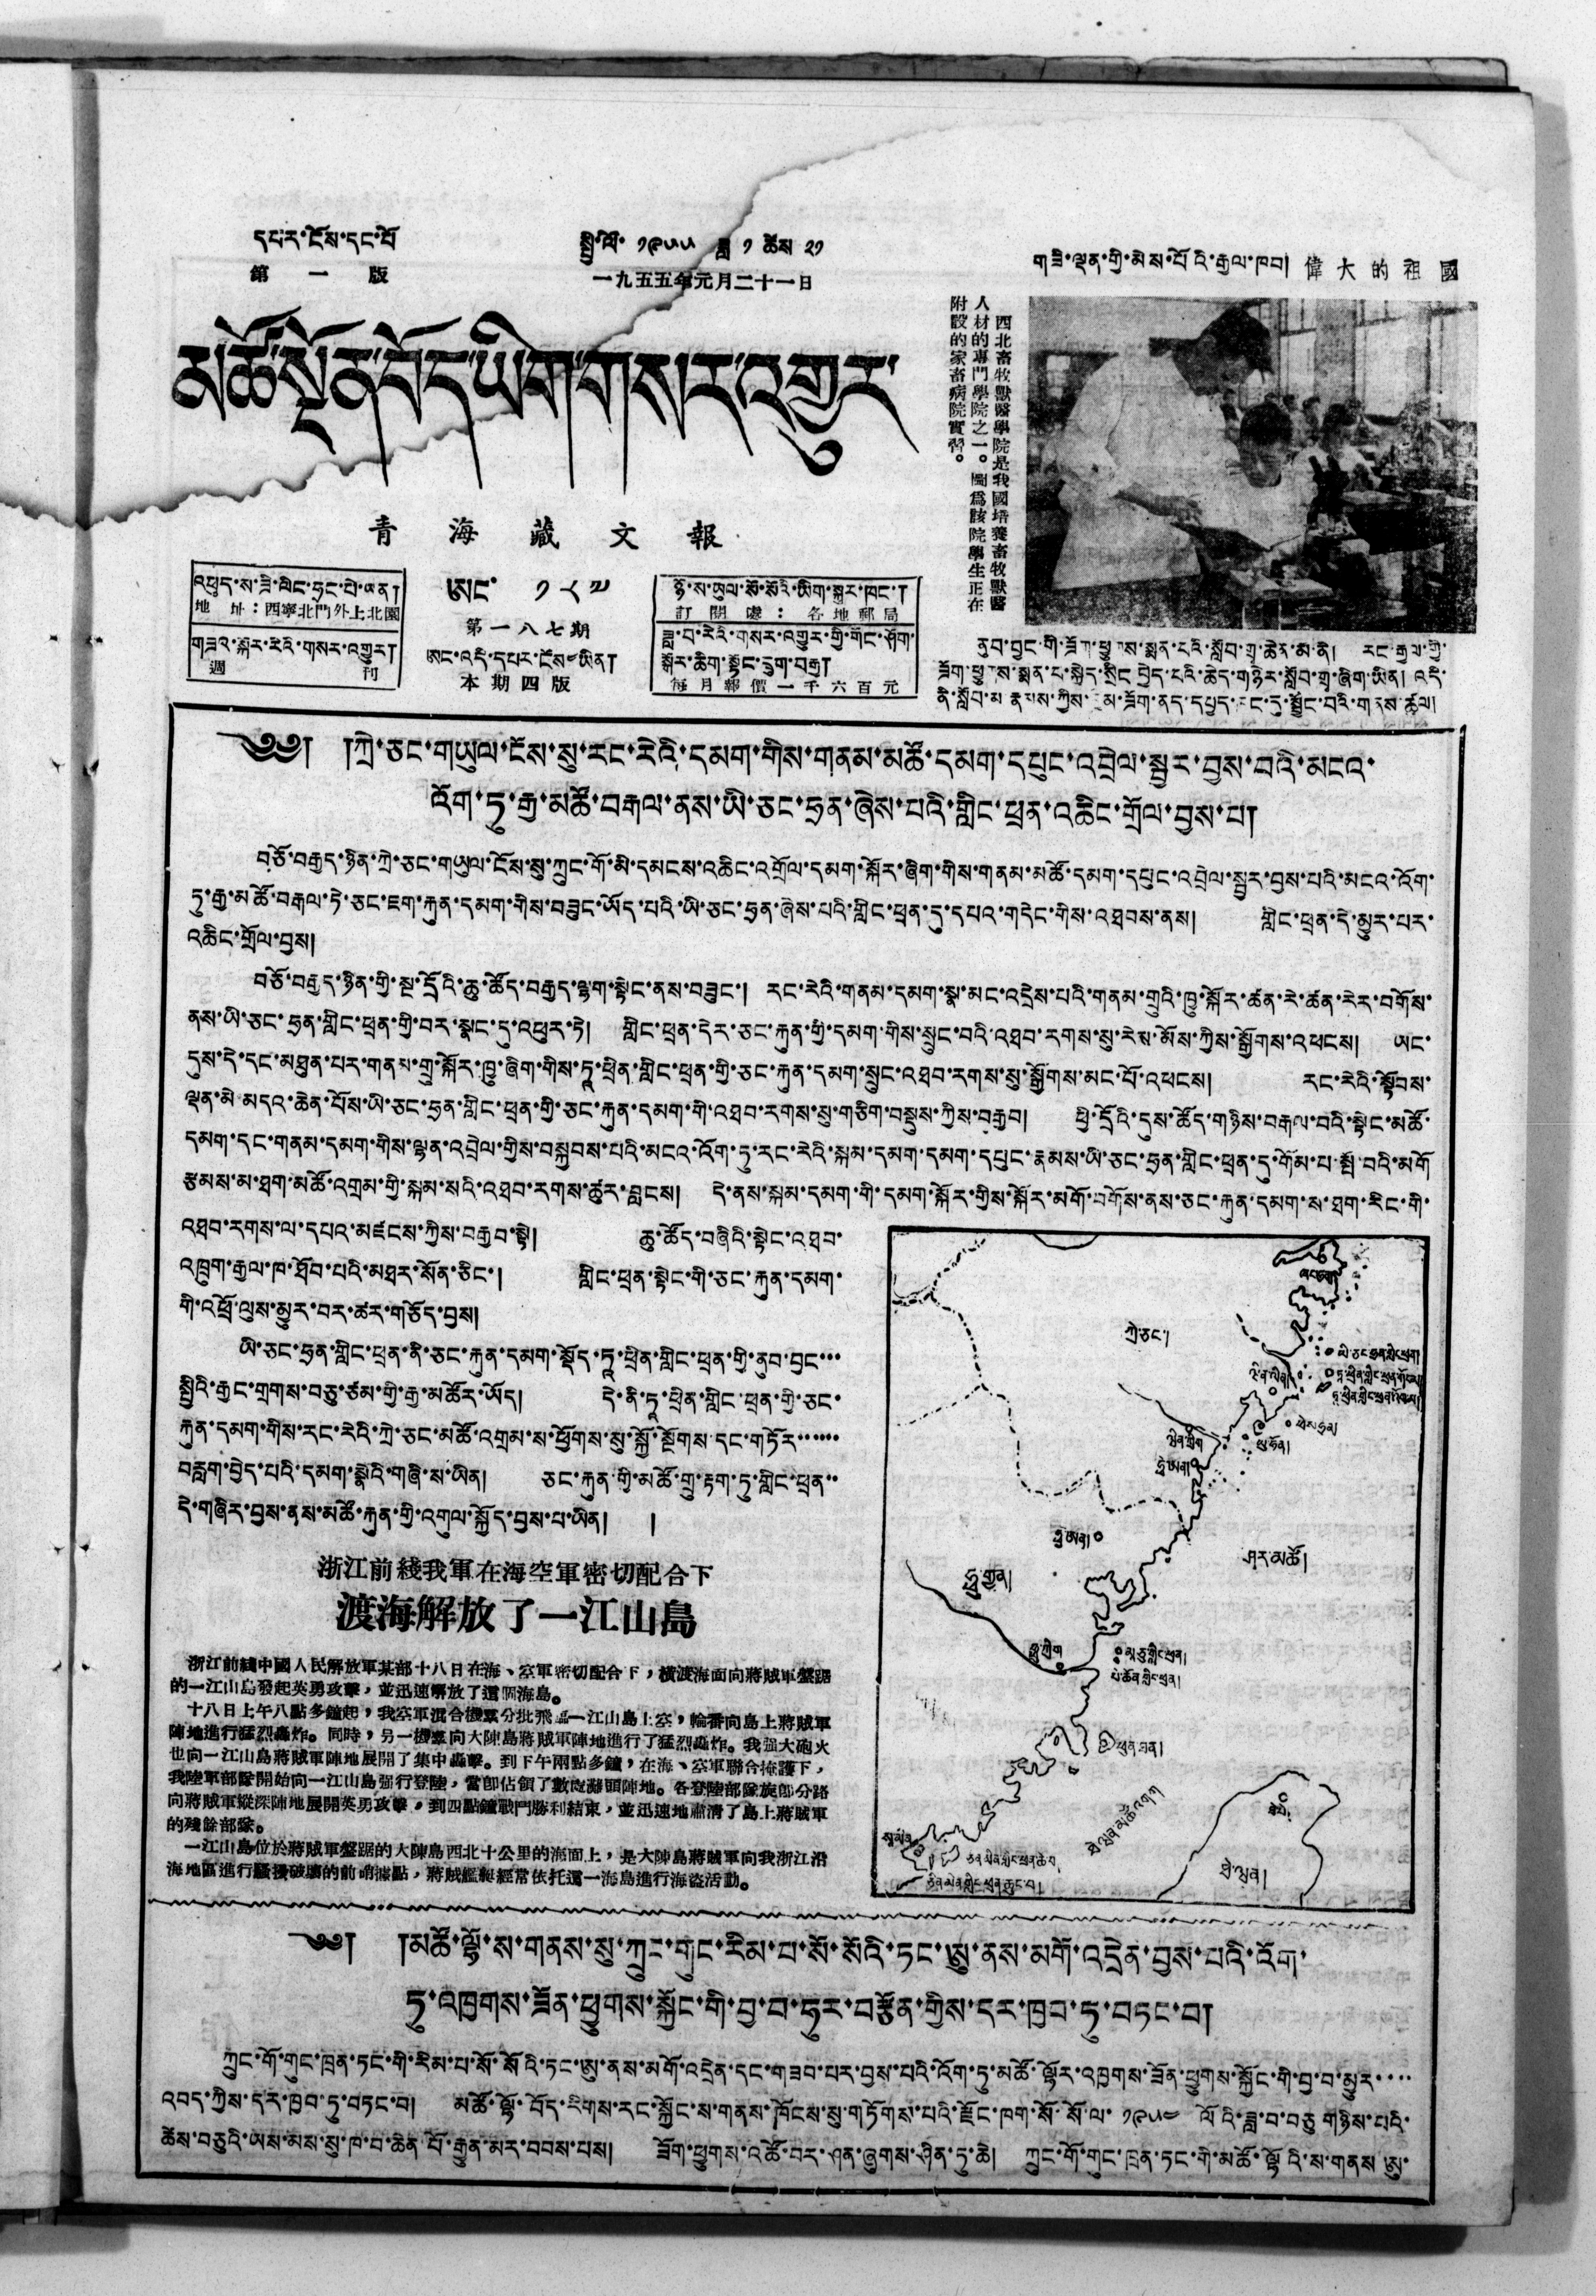དཔར་ངོས་དང་པོ   སྤྱི་ལོ་ ༡༩༥༥ ཟླ་ ༡ ཚེས ༢༡
第 一 版 一九五五年元月二十一日
མཚོ་སྔོན་བོད་ཡིག་གསར་འགྱུར་
青 海 藏 文 報
འཕུད་ས་ཟི་ལིང་ཧྲང་པེ་ཡན།
地 址：西寧北門外上北園西報文年月上地會
གཟའ་སྐོར་རེའི་གསར་འགྱུར།
週 刊
ཨང་ ༡༨༧
第一八七期
ཨང་འདི་དཔར་ངོས༤ཡིན།
本 期 四 版
ཉོ་ས་ཡུལ་སོ་སོའི་ཡིག་སྐུར་ཁང་།
訂 閱 處 ： 各 地 郵 局
ཟླ་བ་རེའི་གསར་འགྱུར་གྱི་གོང་ཤོག
སྒོར་ཆིག་སྟོང་དྲུག་བརྒྱ།
每 月 報 價 一 千 六 百 元
གཟི་ལྡན་གྱི་མེས་པོའི་རྒྱལ་ཁབ། 偉 大 的 祖 國
西北畜牧獸醫學院是我國培養畜牧獸醫
人材的專門學院之一。圖爲該院學生正在
附設的家畜病院實習。
ནུབ་བྱང་གི་ཟོག་ཕྱུགས་སྨན་པའི་སློབ་གྲྭ་ཆེན་མ་ནི། རང་རྒྱལ་གྱི་
ཟོག་ཕྱུགས་སྨན་པ་སྐྱེད་སྲིང བྱེད་པའི་ཆེད་གཉེར་སློབ་གྲྭ་ཞིག་ཡིན། འདི་
ནི་སློབ་མ རྣམས་ཀྱིས་མ་ཟོག་ནད་དཔྱད་རང་དུ་སྦྱོང་བའི་གནས་ཚུལ།
༄༅། །ཀྲེ་ཅང་གཡུལ་ངོས་སུ་རང་རེའི་དམག་གིས་གནམ་མཚོ་དམག་དཔུང་འབྲེལ་སྦྱར་བྱས་པའི་མངའ་
འོག་ཏུ་རྒྱ་མཚོ་བརྒལ་ནས་ཡི་ཅང་ཧྲན་ཞེས་པའི་གླིང་ཕྲན་འཆིང་གྲོལ་བྱས་པ།
བཅོ་བརྒྱད་ཉིན་ཀྲེ་ཅང་གཡུལ་ངོས་སུ་ཀྲུང་གོ་མི་དམངས་འཆིང་འགྲོལ་དམག་སྐོར་ཞིག་གིས་གནམ་མཚོ་དམག་དཔུང་འབྲེལ་སྦྱར་བྱས་པའི་མངའ་འོག་
ཏུ་རྒྱ་མཚོ་བརྒལ་ཏེ་ཅང་ཇག་རྐུན་དམག་གིས་བཟུང་ཡོད་པའི་ཡི་ཅང་ཧྲན་ཞེས་པའི་གླིང་ཕྲན་དུ་དཔའ་གདེང་གིས་འཐབས་ནས། གླིང་ཕྲན་དེ་མྱུར་པར
འཆིང་གྲོལ་བྱས།
བཅོ་བརྒྱད་ཉིན་གྱི་སྔ་དྲོའི་ཆུ་ཚོད་བརྒྱད་ལྷག་སྟེང་ནས་བཟུང་། རང་རེའི་གནམ་དམག་སྣ་མང་འདྲེས་པའི་གནམ་གྲུའི་ཁྱུ་སྐོར་ཚན་རེ་ཚན་རེར་བགོས་
ནས་ཡི་ཅང་ཧྲན་གླིང་ཕྲན་གྱི་བར་སྣང་དུ་འཕུར་ཏེ། གླིང་ཕྲན་དེར་ཅང་རྐུན་གྱི་དམག་གིས་སྲུང་བའི་འཐབ་རགས་སུ་རེས་མོས་ཀྱིས་སྒྱོགས་འཕངས། ཡང་
དུས་དེ་དང་མཐུན་པར་གནས་གྲུ་སྐོར་ཁྱུ་ཞིག་གིས་ཏཱ་ཕྲིན་གླིང་ཕྲན་གྱི་ཅང་རྐུན་དམག་སྲུང་འཐབ་རགས་སུ་སྒྱོགས་མང་པོ་འཕངས། རང་རེའི་སྟོབས་
ལྡན་མེ་མདའ་ཆེན་པོས་ཡི་ཅང་ཧྲན་གླིང་ཕྲན་གྱི་ཅང་རྐུན་དམག་གི་འཐབ་རགས་སུ་གཅིག་བསྡུས་ཀྱིས་བརྒྱབ། ཕྱི་དྲོའི་དུས་ཚོད་གཉིས་བརྒལ་བའི་སྟེང་མཚོ་
དམག་དང་གནམ་དམག་གིས་ལྷན་འབྲེལ་གྱིས་བསྐྱབས་པའི་མངའ་འོག་ཏུ་རང་རེའི་སྐམ་དམག་དམག་དཔུང་རྣམས་ཡི་ཅང་ཧྲན་གླིང་ཕྲན་དུ་གོམ་པ་སྤོ་བའི་མགོ
རྩམས་མ་ཐག་མཚོ་འགྲམ་གྱི་སྐམ་སའི་འཐབ་རགས་ཚུར་བླངས། དེ་ནས་སྐམ་དམག་གི་དམག་སྐོར་གྱིས་སྐོར་མགོ་བགོས་ནས་ཅང་རྐུན་དམག་ས་ཐག་རིང་གི་
འཐབ་རགས་ལ་དཔའ་མཛངས་ཀྱིས་བརྒྱབ་སྟེ། ཆུ་ཚོད་བཞིའི་སྟེང་འཐབ་
འཁྲུག་རྒྱལ་ཁ་ཐོབ་པའི་མཐར་སོན་ཅིང་། གླིང་ཕྲན་སྟེང་གི་ཅང་རྐུན་དམག་
གི་འཕྲོ་ལུས་མྱུར་བར་ཚར་གཅོད་བྱས།
ཡི་ཅང་ཧྲན་གླིང་ཕྲན་ནི་ཅང་རྐུན་དམག་སྡོད་ཏཱ་ཕྲིན་གླིང་ཕྲན་གྱི་ནུབ་བྱང་་་
སྤྱིའི་རྒྱང་གྲགས་བཅུ་ཙམ་གྱི་རྒྱ་མཚོར་ཡོད། དེ་ནི་ཏཱ་ཕྲིན་གླིང་ཕྲན་གྱི་ཅང་
རྐུན་དམག་གིས་རང་རེའི་ཀྲེ་ཅང་མཚོ་འགྲམ་ས་ཕྱོགས་སུ་སྐྱོ་སྔོགས་དང་གཏོར་་་་་་
བརླག་བྱེད་པའི་དམག་སྣེའི་གཞི་ས་ཡིན། ཅང་རྐུན་གྱི་མཚོ་གྲུ་རྟག་ཏུ་གླིང་ཕྲན་་
དེ་གཞིར་བྱས་ནས་མཚོ་རྐུན་གྱི་འགུལ་སྐྱོད་བྱས་པ་ཡིན།  །
浙江前綫我軍在海空軍密切配合下
渡海解放了一江山島
浙江前綫中國人民解放軍某部十八日在海、空軍密切配合下，橫渡海面向蔣賊軍盤踞
的一江山島發起英勇攻擊，並迅速解放了這個海島。
十八日上午八點多鍾起，我空軍混合機羣分批飛臨一江山島上空，輪番向島上蔣賊軍
陣地進行猛烈轟炸。同時，另一機羣向大陳島蔣賊軍陣地進行了猛烈轟炸。我強大砲火
也向一江山島蔣賊軍陣地展開了集中轟炸。到下午兩點多鍾，在海、空軍聯合掩護下，
我陸軍部隊開始向一江山島強行登陸，當卽佔領了數處灘頭陣地。各登陸部隊旋卽分路
向蔣賊軍縱深陣地展開英勇攻擊，到四點鐘戰鬥勝利結束，並迅速地肅清了島上蔣賊軍
的殘餘部隊。
一江山島位於蔣賊軍盤踞的大陳島西北十公里的海面上，是大陳島蔣賊軍向我浙江沿
海地區進行騷擾破壞的前哨據點，蔣賊艦艇經常依托這一海島進行海盜活動。
ཞང་ཧྲན།
ཀྲེ་ཅང་།
ཡི་ཅང་ཧྲན་གླིང་ཕྲན།
ཝིན་ལིན།
ཏཱ་ཕྲིན་གླིང་ཕྲན་གོང་མ།
ཏཱ་ཕྲིན་གླིང་ཕྲན་འོག་མ།
ཕེས་ཧྲན།
ཝིན་ཀྲིག
ཡུ་ཧོན།
ཧྥུ་ཨན།
ཧྥེ་ཨན།
ཤར་མཚོ།
ཧྥུ་གྱན།
ཧྥུ་ཀྲིག་
མཱ་ཅུ་གླིང་ཕྲན།
པེ་ཆོན་གླིང་ཕྲན།
ཕུན་ཐན།
ཐེ་ཝན་མཚོ་འགག
ཐེ་པེ།
སཱ་མིན།
ཅིན་མིན་གླིང་ཕྲན་ཆེ་བ།ཅི་མིན་གླིང་ཕྲན་ཆེ་བ།
ཐེ་ཝན།
ཅིན་མིན་གླིང་ཕྲན་ཆུང་བ།
༄༅། །མཚོ་ལྷོ་ས་གནས་སུ་ཀྲུང་གུང་རིམ་པ་སོ་སོའི་ཏང་ཨུ་ནས་མགོ་འདྲེན་བྱས་པའི་འོག་
ཏུ་འཁྱགས་ཟོན་ཕྱུགས་སྐྱོང་གི་བྱ་བ་ཧུར་བརྩོན་གྱིས་དར་ཁྱབ་ཏུ་བཏང་བ།
ཀྲུང་གོ་གུང་ཁྲན་ཏང་གི་རིམ་པ་སོ་སོའི་ཏང་ཨུ་ནས་མགོ་འདྲེན་དང་གཟབ་པར་བྱས་པའི་འོག་ཏུ་མཚོ་ལྷོར་འཁྱགས་ཟོན་ཕྱུགས་སྐྱོང་གི་བྱ་བ་མྱུར་་་
འབད་ཀྱིས་དར་ཁྱབ་ཏུ་བཏང་བ། མཚོ་ལྷོ་བོད་རིགས་རང་སྐྱོང་ས་གནས་ཁོངས་སུ་གཏོགས་པའི་རྫོང་ཁག་སོ་སོ་ལ་ ༡༩༥༤ ལོའི་ཟླ་བ་བཅུ གཉིས་པའི་
ཚེས་བཅུའི་ཡས་མས་སུ་ཁ་བ་ཆེན་པོ་རྒྱུན་མར་བབས་པས། ཟོག་ཕྱུགས་འཚོ་བར་ཤན་ཞུགས་ཤིན་ཏུ་ཆེ། ཀྲུང་གོ་གུང་ཁྲན་ཏང་གི་མཚོ་ལྷོའི་ས་གནས ཨུ་
